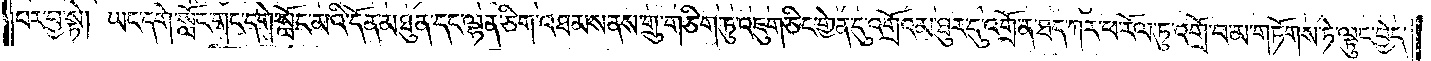པར་བྱ་སྟེ། ཡང་དགེ་སློང་གང་དགེ་སློང་མའི་དོན་མཐུན་དང་ལྷན་ཅིག་འཐམས་ནས་གྲུ་གཅིག་ཏུ་འཇུག་ཅིང་གྱེན་དུ་འགྲོའམ་ཐུར་དུ་འགྲོ་ན་ཐད་ཀར་ཕ་རོལ་ཏུ་འགྲོ་བ་མ་གཏོགས་ཏེ་ལྟུང་བྱེད་
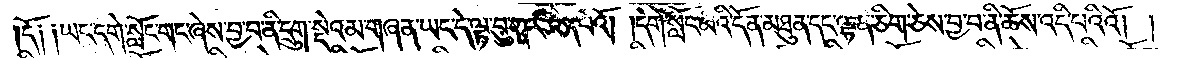དོ༑ ༑ཡང་དགེ་སློང་གང་ཞེས་བྱ་བ་ནི་དྲུག་སྡེའམ་གཞན་ཡང་དེ་ལྟ་བུ་གང་ཡིན་པའོ། །དགེ་སློང་མའི་དོན་མཐུན་དང་ལྷན་ཅིག་ཅེས་བྱ་བ་ནི་ཆོས་འདི་པའིའོ། །
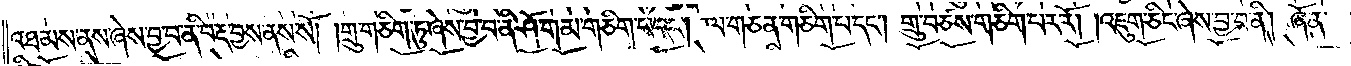འཐམས་ནས་ཞེས་བྱ་བ་ནི་བརྡ་བྱས་ནས་སོ། །གྲུ་གཅིག་ཏུ་ཞེས་བྱ་བ་ནི་ཤོ་གམ་གཅིག་པ་དང༌། ལ་གཅན་གཅིག་པ་དང༌། གྲུ་བཙས་གཅིག་པར་རོ། །འཇུག་ཅིང་ཞེས་བྱ་བ་ནི། ཞོན་
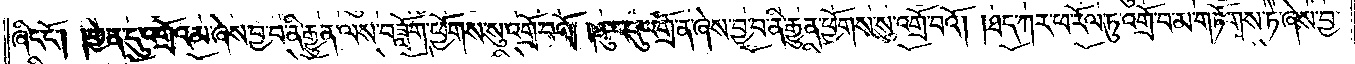ཞིང་ངོ༌། །གྱེན་དུ་འགྲོའམ་ཞེས་བྱ་བ་ནི་རྒྱུན་ལས་བཟློག་ཕྱོགས་སུ་འགྲོ་བའོ། །ཐུར་དུ་འགྲོ་ན་ཞེས་བྱ་བ་ནི་རྒྱུན་ཕྱོགས་སུ་འགྲོ་བའོ། །ཐད་ཀར་ཕ་རོལ་ཏུ་འགྲོ་བ་མ་གཏོགས་ཏེ་ཞེས་བྱ་
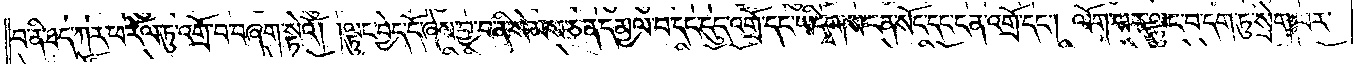བ་ནི་ཐད་ཀར་ཕ་རོལ་ཏུ་འགྲོ་བ་བཞག་སྟེའོ། །ལྟུང་བྱེད་དོ་ཞེས་བྱ་བ་ནི་སེམས་ཅན་དམྱལ་བ་དང་དུད་འགྲོ་དང་ཡི་དྭགས་ངན་སོང་དང་ངན་འགྲོ་དང༌། ལོག་པར་ལྟུང་བ་དག་ཏུ་སྲེག་པར་
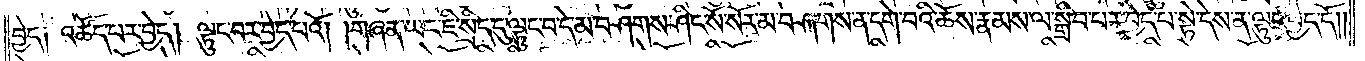བྱེད། འཚོད་པར་བྱེད། ལྟུང་བར་བྱེད་པའོ། །གཞན་ཡང་ཇི་སྲིད་དུ་ལྟུང་བ་དེ་མ་བཤགས་ཤིང་སོ་སོར་མ་བཤགས་ན་དགེ་བའི་ཆོས་རྣམས་ལ་སྒྲིབ་པར་བྱེད་པ་སྟེ་དེས་ན་ལྟུང་བྱེད་དོ། །
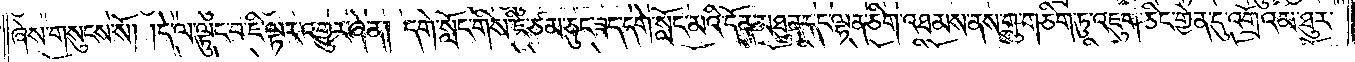ཞེས་གསུངས་སོ། །དེ་ལ་ལྟུང་བ་ཇི་ལྟར་འགྱུར་ཞེ་ན། དགེ་སློང་གིས་ཇི་ཙམ་ཅུང་ཟད་དགེ་སློང་མའི་དོན་མཐུན་དང་ལྷན་ཅིག་འཐམས་ནས་གྲུ་གཅིག་ཏུ་འཇུག་ཅིང་གྱེན་དུ་འགྲོའམ་ཐུར་
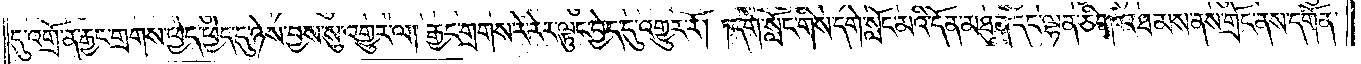དུ་འགྲོ་ན་རྒྱང་གྲགས་ཕྱེད་ཕྱེད་དུ་ཉེས་བྱས་སུ་འགྱུར་ལ། རྒྱང་གྲགས་རེ་རེར་ལྟུང་བྱེད་དུ་འགྱུར་རོ། །དགེ་སློང་གིས་དགེ་སློང་མའི་དོན་མཐུན་དང་ལྷན་ཅིག་འཐམས་ནས་གྲོང་ནས་དགོན་
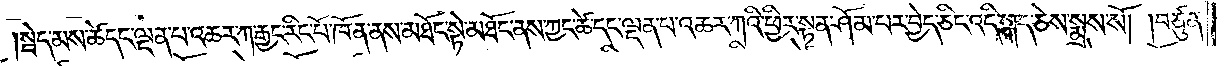སྦེད་མས་ཚེ་དང་ལྡན་པ་འཆར་ཀ་རྒྱང་རིང་པོ་ཁོ་ན་ནས་མཐོང་སྟེ་མཐོང་ནས་ཀྱང་ཚེ་དང་ལྡན་པ་འཆར་ཀའི་ཕྱིར་སྟན་ཤོམ་པར་བྱེད་ཅིང་འདི་སྐད་ཅེས་སྨྲས་སོ། །བཙུན་
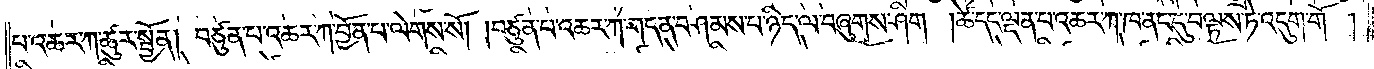པ་འཆར་ཀ་ཚུར་སྤྱོན། བཙུན་པ་འཆར་ཀ་བྱོན་པ་ལེགས་སོ། །བཙུན་པ་འཆར་ཀ་གདན་བཤམས་པ་ཉིད་ལ་བཞུགས་ཤིག །ཚེ་དང་ལྡན་པ་འཆར་ཀ་ཁ་ནང་དུ་བལྟས་ཏེ་འདུག་གོ །
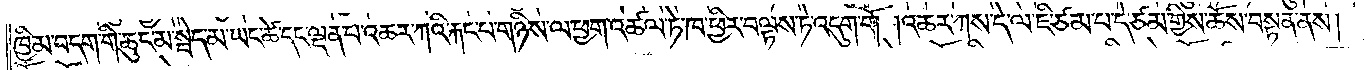ཁྱིམ་བདག་གི་ཆུང་མ་སྦེད་མ་ཡང་ཚེ་དང་ལྡན་པ་འཆར་ཀའི་རྐང་པ་གཉིས་ལ་ཕྱག་འཚལ་ཏེ་ཁ་ཕྱིར་བལྟས་ཏེ་འདུག་གོ །འཆར་ཀས་དེ་ལ་ཇི་ཙམ་པ་དེ་ཙམ་གྱིས་ཆོས་བསྟན་ནས།
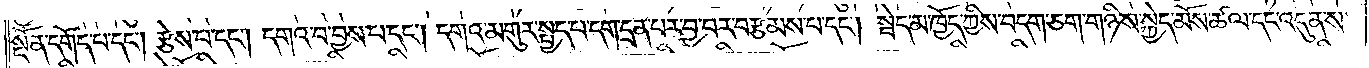སྔོན་དགོད་པ་དང༌། རྩེས་པ་དང༌། དགའ་བ་བྱས་པ་དང༌། དགའ་མགུར་སྤྱད་པ་དག་དྲན་པར་བྱ་བར་བརྩམས་པ་དང༌། སྦེད་མ་ཁྱོད་ཀྱིས་བདག་ཅག་གཉིས་སྐྱེད་མོས་ཚལ་དང་འདུན་ས་
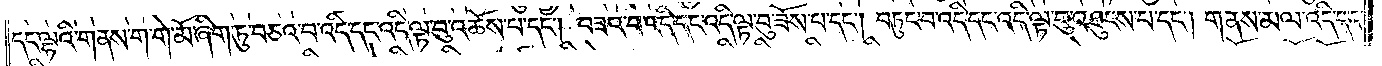དང་ལྷའི་གནས་ག་གེ་མོ་ཞིག་ཏུ་བཅའ་བ་འདི་དང་འདི་ལྟ་བུ་འཆོས་པ་དང༌། བཟའ་བ་འདི་དང་འདི་ལྟ་བུ་ཟོས་པ་དང༌། བཏུང་བ་འདི་དང་འདི་ལྟ་བུ་འཐུངས་པ་དང༌། གནས་མལ་འདི་དང་
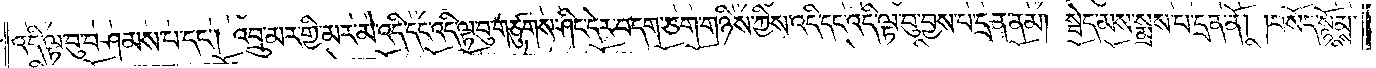འདི་ལྟ་བུ་བཤམས་པ་དང༌། འབྲུ་མར་གྱི་མར་མེ་འདི་དང་འདི་ལྟ་བུ་གཙུགས་ཤིང་དེར་བདག་ཅག་གཉིས་ཀྱིས་འདི་དང་འདི་ལྟ་བུ་བྱས་པ་དྲན་ནམ། སྦེད་མས་སྨྲས་པ་དྲན་ནོ། །བསོད་སྙོམས་
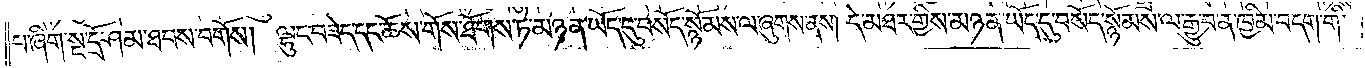པ་ཞིག་སྔ་དྲོ་ཤམ་ཐབས་བགོས། ལྷུང་བཟེད་དང་ཆོས་གོས་ཐོགས་ཏེ་མཉན་ཡོད་དུ་བསོད་སྙོམས་ལ་ཞུགས་ནས། དེ་མཐར་གྱིས་མཉན་ཡོད་དུ་བསོད་སྙོམས་ལ་རྒྱུ་བ་ན་ཁྱིམ་བདག་གི་
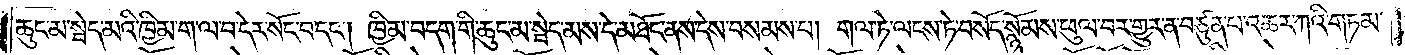ཆུང་མ་སྦེད་མའི་ཁྱིམ་ག་ལ་དེར་སོང་བ་དང༌། ཁྱིམ་བདག་གི་ཆུང་མ་སྦེད་མས་དེ་མཐོང་ནས་དེས་བསམས་པ། གལ་ཏེ་ལངས་ཏེ་བསོད་སྙོམས་ཕུལ་བར་གྱུར་ན་བཙུན་པ་འཆར་ཀའི་གཏམ་
